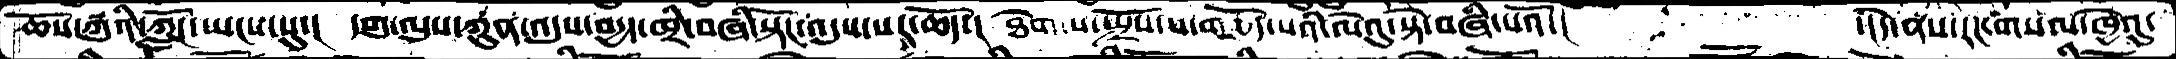ཆོས་སྐུའི་ཀློང་ཡངས་སུ་།  དགུ་ལུས་ཀུན་འདུས་བདྱད་ཁྲི་བཞི་སྟོང་འདུས་པར་ཆོད་།  ཐེག་པ་སྤྲོས་པ་གཅོད་པའི་ལེའུ་སྟེ་བཞི་པའོ་།       ་།དེ་ནས་རང་གསལ་ཁྱེའུ་
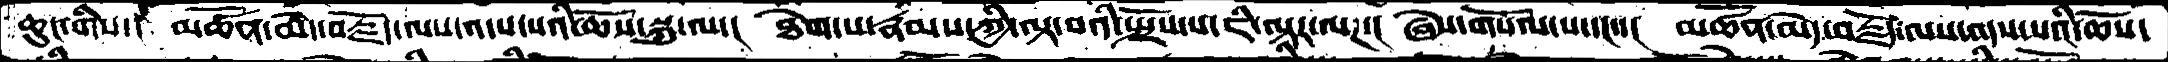ཆུང་གིས་།  མཚན་མེད་བརྗོད་ལས་འདས་པའི་ཆོས་སྐུ་ལ་།  ཐེག་པ་རྣམས་ཀྱི་ལྟ་བའི་སྤྲོས་པ་ཇི་ལྟར་ལཌ་།  ཞེས་གསོལ་པ་དང་་།  མཚོན་མེད་བརྗོད་ལས་འདས་པའི་ཆོས་
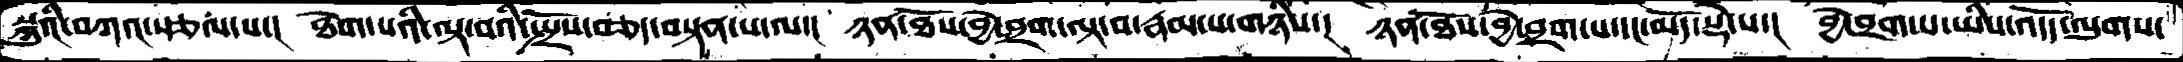སྐུའི་བཀའ་སྩལ་པ་།  ཐེག་པའི་ལྟ་བའི་སྤྲོས་བཅད་བསྟན་པ་ལ་།  ཉན་ཐོས་བྱེ་བྲག་ལྟ་བ་རྣམ་པ་གཉིས་།  ཉན་ཐོས་བྱེ་བྲག་པ་དང་མདོ་སྡེ་པ་།  བྱེ་བྲག་པ་ཡིས་འདོད་ལུགས་
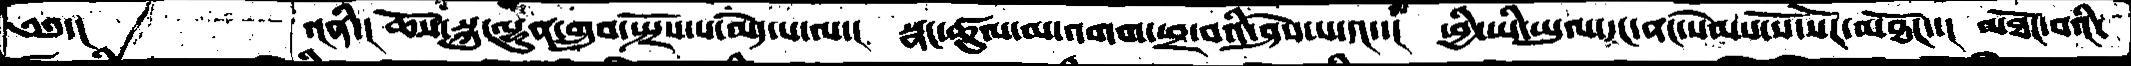༄༅་།     ་།ནི་།  ཆོས་སྐུ་ལྷུན་གྲུབ་སྤྲོས་པ་མེད་པ་ལ་།  སྣང་ཚུལ་མ་འགག་ཕྲ་བའི་ཤེས་པ་དང་་།  ཕྱི་ཡི་ཡུལ་དང་ནང་སེམས་སོ་སོར་མཐོང་་།  མཐོང་བའི་
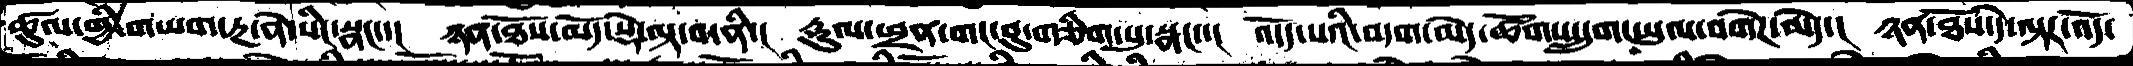ཚུལ་གྱི་གཡག་རྔ་ནེ་སིང་སྣང་་།  ཉན་ཐོས་མདོ་སྡེ་ལྟ་བ་ནི་།  རྡུལ་ཕྲན་གང་བུ་གཅིག་པུ་སྣང་་།  འདོད་པའི་བདག་མེད་ཚོགས་དྲུག་ཡུལ་བགེཌ་མེད་།  ཉན་ཐོས་དེ་ལྟར་འོད་
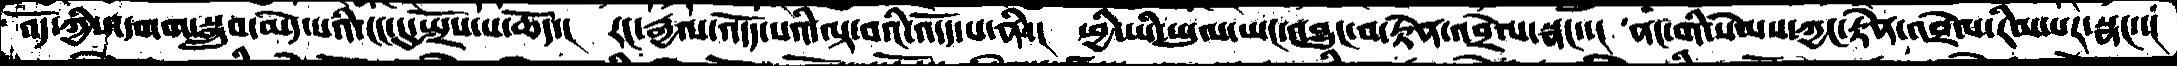འོད་ཀྱིས་དགག་སྒྲུབ་མེད་པའི་ངང་དུ་སྤྲོས་པ་ཆོད་།  རང་རྒྱལ་འོདད་པའི་ལྟ་བའི་འདོད་པ་ནི་།  ཕྱི་ཡི་ཡུལ་ཡང་འབྱུང་བ་རྟེན་འབྲེལ་སྣང་་།  ནང་གི་སེམས་ཀྱང་རྟེན་འབྲེལ་རིམ་པར་སྣང་་།
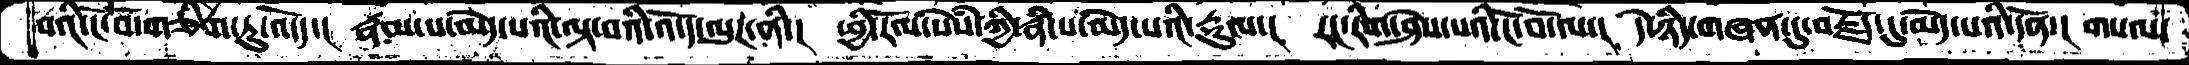བའི་ངོ་བོ་གཅིག་ཏུ་འདོད་།  རྣམ་པ་མེད་པའི་ལྟ་བའི་འདོད་ལུཌ་ནི་།  ཕྱི་རོལ་སེཾས་ཀྱི་རྣཾ་པ་མེད་པའི་རྡུལ་།  རང་རིག་ཤེས་པའི་ངོ་བོ་ལ་།  དེ་ཉིད་གཞན་དུ་བརྗོད་དུ་མེད་པའི་དོན་། གསལ་
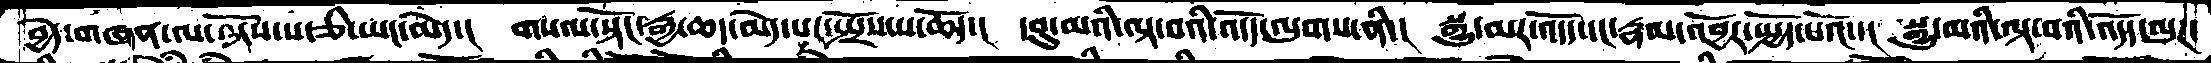བྱེད་གཞན་ལ་ལྟོས་པ་ཅི་ཡང་མེད་།  གསལ་སྟོང་རྒྱ་ཆད་མེད་པར་སྤྲོས་པ་ཆོད་།  དབུ་མའི་ལྟ་བའི་འདོད་ལུགས་ནི་།  སྒྱུ་མར་འདོད་དང་རྣལ་འབྱོར་སྤྲོད་པའོ་།  སྒྱུ་མའི་ལྟ་བའི་འདོད་ལུཌ་
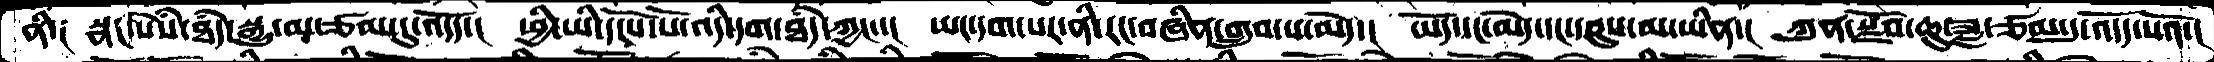ནི༑  སྣང་སེཾས་ཐདཾ་སྒྱུ་མ་ཙམ་དུ་འདོད་།  ཕྱི་ཡི་དངོས་པོ་འདི་དག་ཐདཾ་ཀྱང་་།  ཡང་དག་པར་ནི་རང་བཞིན་གྲུབ་པ་མེད་།  ཡོད་དང་མེད་དང་དབུས་མ་ཡིན་།  ཀུན་སྫོབ་ཆུ་ཟླ་ཙམ་དུ་འདོད་པའོ་།
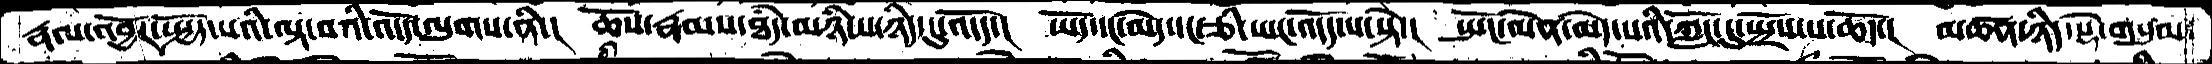རྣལ་འབྱོར་སྤྱོད་པའི་ལྟ་བའི་འདོད་ལུགས་ནི་།  ཆོས་རྣམས་ཐདཾ་མཉཾ་པ་ཉིད་དུ་འདོད་།  ཡོད་དང་མེད་དང་ཅི་ཡང་འདོད་པ་སྟེ་།  སྤོང་ལེན་མེད་པའི་ཀློང་དུ་སྤྲོས་པ་ཆོད་།  མཚན་ཉིད་སྡེ་གསུམ་
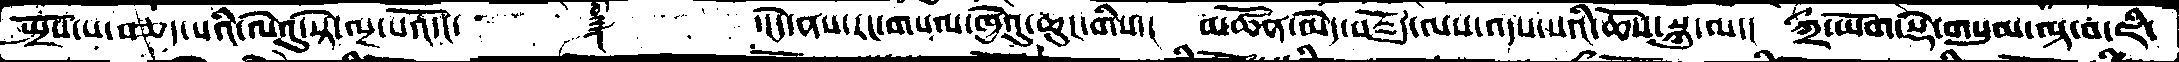སྤྲོས་པ་བཅད་པའི་ལེའུ་སྟེ་ལྔ་པའོ་།     ༈    ་།དེ་ནས་རང་གསལ་ཁྱེའུ་ཆུང་གིས་། མཚོན་མེད་བརྗོད་ལས་འདས་པའི་ཆོས་སྐུ་ལ་། ཀྲྀ་ཡོག་སྡེ་གསུམ་ལྟ་བ་ཇི་
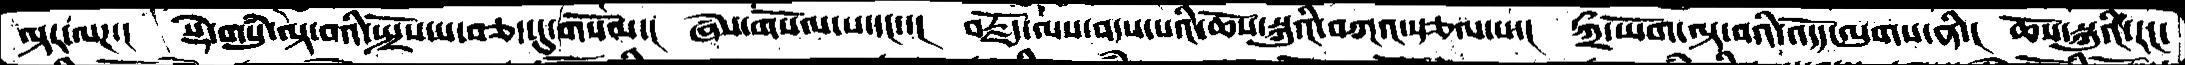ལྟར་ལཌ་།  སྡེ་གསུཾ་ལྟ་བའི་སྤྲོས་པ་བཅད་དུ་གསོལ་།  ཞེས་གསལོ་བ་དང་་།  བརྗོད་ལས་འདས་པའི་ཆོས་སྐུའི་བཀའ་སྩལ་པ་།  ཀྲྀ་ཡོག་ལྟ་བའི་འདོད་ལུགས་ནི་།  ཆོས་སྐུའི་རང་
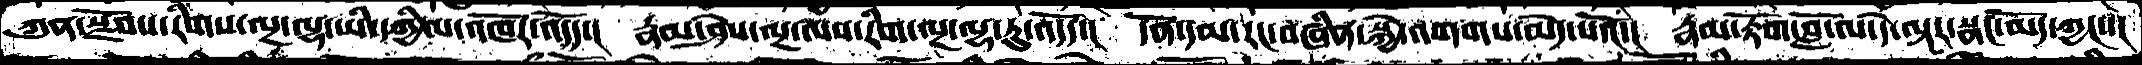ཀུན་སྫོབ་རིགས་ལྔ་ལྷ་ཡི་དཀྱིལ་འཁོར་འདོད་།  རྣམ་ཤེས་ལྔ་ལས་རིག་ལྔ་ལྷ་རུ་འདོད་།  དོན་དམ་རང་བཞིན་སྐྱེ་འགགས་མེད་པའོ་།  རྣམ་རྟོག་བློ་ལ་དེ་ལྟར་སྣང་མོད་ཀྱང་་།
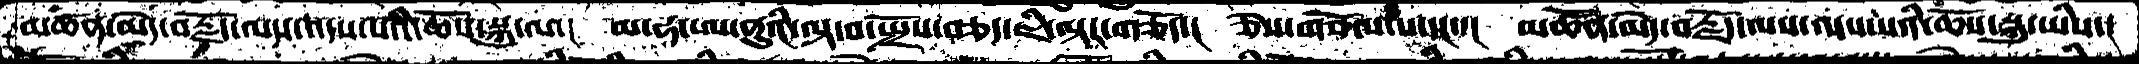མཚན་མེད་བརྗོད་ལས་འདས་པའི་ཆོས་སྐུ་ལ་།  མ་ཧ་ཨ་ནུའི་ལྟ་བ་སྤྲོས་བཅད་ཇི་ལྟར་གཅོད་།  ཅེས་གསོལ་པ་དང་་།  མཚོན་མེད་བརྗོད་ལས་འདས་པའི་ཆོས་སྐུ་ཡིས་།
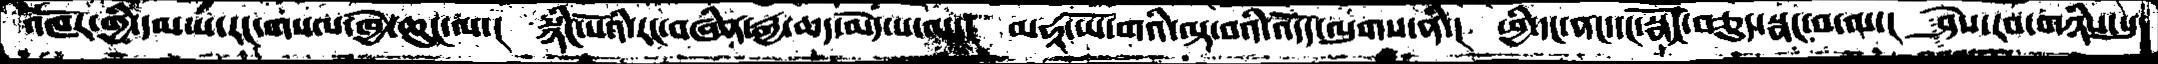འཁོར་གྱི་དམ་པ་རང་གསལ་ཁྱེ་ཆུང་ལ་།  སྙིང་པོའི་རང་བཞིན་རྒྱ་ཆད་མེད་པ་ལ་།  མཧཱ་ཡོ་གའི་ལྟ་བའི་འདོད་ལུགས་ནི་།  ཕྱི་དང་ནང་དང་སྣོད་བཅུད་སྣང་བ་ལ་།  ཤེས་རབ་གཉིས་སུ
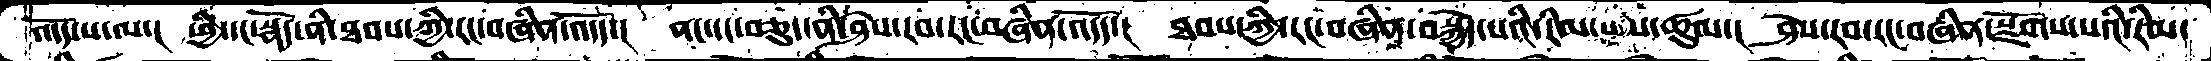འདོད་པ་ལ་།  ཕྱི་དང་སྣོད་ནི་ཐབས་ཀྱི་རང་བཞིན་འདོད་།  ནང་དང་བཅུད་ནི་ཤེས་རབ་རང་བཞིན་འདོད་།  ཐབས་ཀྱི་རང་བཞིན་བསྐྱེད་པའི་རིམ་པས་ཚུལ་།  ཤེས་རབ་རང་བཞིན་སྫོགས་པའི་རིམ་
